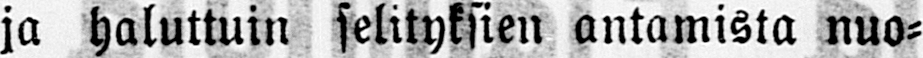ja haluttuin selityksien antamista nuo-
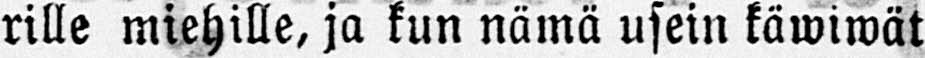rille miehille, ja kun nämä usein käwiwät
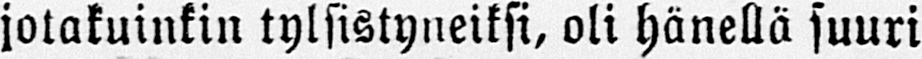jotakuinkin tylsistyneiksi, oli hänellä suuri
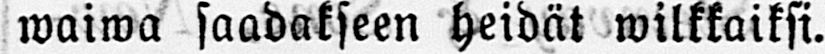waiwa saadakseen heidät wilkkaiksi.
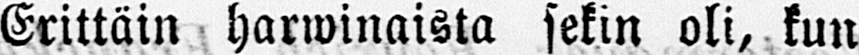Erittäin harwinaista sekin oli, kun
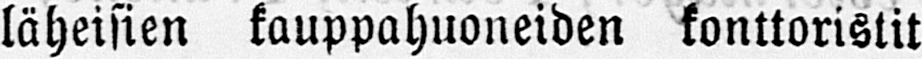läheisien kauppahuoneiden konttoristit
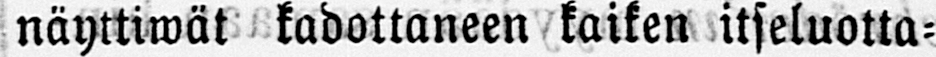näyttiwät kadottaneen kaiken itseluotta-
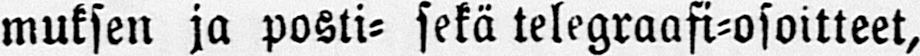muksen ja posti- sekä telegraafi-osoitteet,
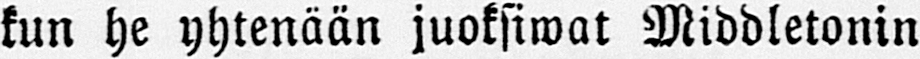kun he yhtenään juoksiwat Middletonin
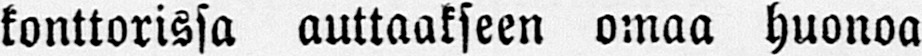konttorissa auttaakseen omaa huonoa
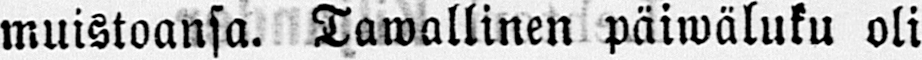muistoansa. Tawallinen päiwäluku oli
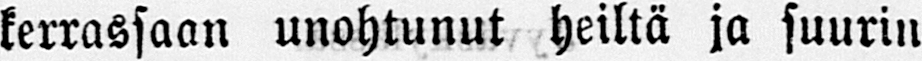kerrassaan unohtunut heiltä ja suurin
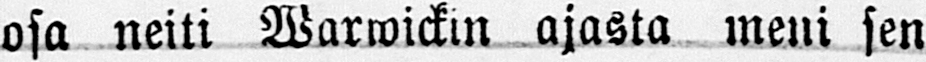osa neiti Warwickin ajasta meni sen
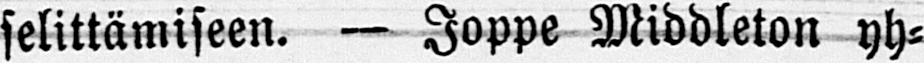selittämiseen. — Joppe Middleton yh-
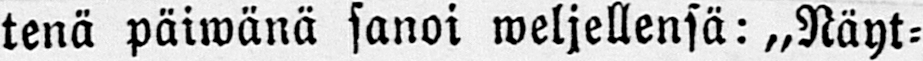tenä päiwänä sanoi weljellensä: „Näyt-
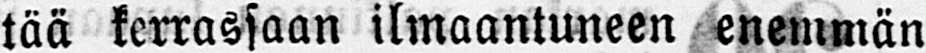tää kerrassaan ilmaantuneen enemmän
